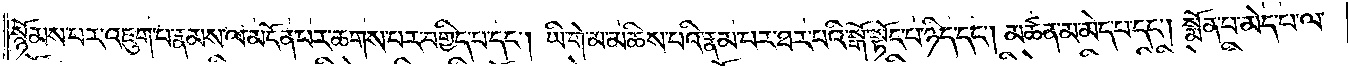སྙོམས་པར་འཇུག་པ་རྣམས་ལ་མངོན་པར་ཆགས་པར་བགྱིད་པ་དང༌། ཡི་གེ་མ་མཆིས་པའི་རྣམ་པར་ཐར་པའི་སྒོ་སྟོང་པ་ཉིད་དང༌། མཚན་མ་མེད་པ་དང༌། སྨོན་པ་མེད་པ་ལ་
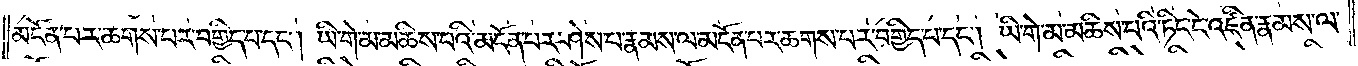མངོན་པར་ཆགས་པར་བགྱིད་པ་དང༌། ཡི་གེ་མ་མཆིས་པའི་མངོན་པར་ཤེས་པ་རྣམས་ལ་མངོན་པར་ཆགས་པར་བགྱིད་པ་དང༌། ཡི་གེ་མ་མཆིས་པའི་ཏིང་ངེ་འཛིན་རྣམས་ལ་
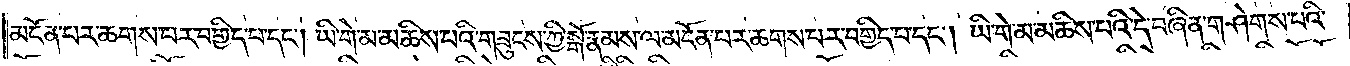མངོན་པར་ཆགས་པར་བགྱིད་པ་དང༌། ཡི་གེ་མ་མཆིས་པའི་གཟུངས་ཀྱི་སྒོ་རྣམས་ལ་མངོན་པར་ཆགས་པར་བགྱིད་པ་དང༌། ཡི་གེ་མ་མཆིས་པའི་དེ་བཞིན་གཤེགས་པའི་
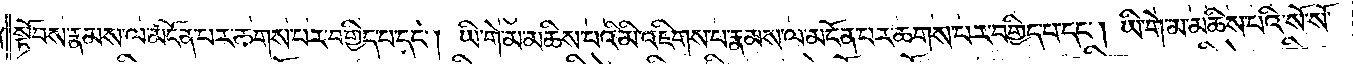སྟོབས་རྣམས་ལ་མངོན་པར་ཆགས་པར་བགྱིད་པ་དང༌། ཡི་གེ་མ་མཆིས་པའི་མི་འཇིགས་པ་རྣམས་ལ་མངོན་པར་ཆགས་པར་བགྱིད་པ་དང༌། ཡི་གེ་མ་མཆིས་པའི་སོ་སོ་
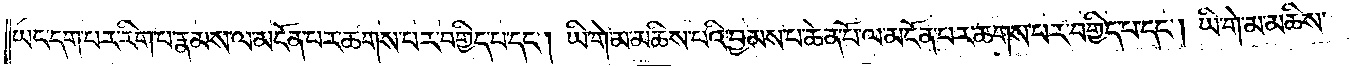ཡང་དག་པར་རིག་པ་རྣམས་ལ་མངོན་པར་ཆགས་པར་བགྱིད་པ་དང༌། ཡི་གེ་མ་མཆིས་པའི་བྱམས་པ་ཆེན་པོ་ལ་མངོན་པར་ཆགས་པར་བགྱིད་པ་དང༌། ཡི་གེ་མ་མཆིས་
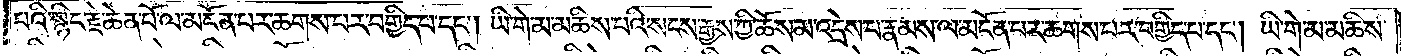པའི་སྙིང་རྗེ་ཆེན་པོ་ལ་མངོན་པར་ཆགས་པར་བགྱིད་པ་དང༌། ཡི་གེ་མ་མཆིས་པའི་སངས་རྒྱས་ཀྱི་ཆོས་མ་འདྲེས་པ་རྣམས་ལ་མངོན་པར་ཆགས་པར་བགྱིད་པ་དང༌། ཡི་གེ་མ་མཆིས་
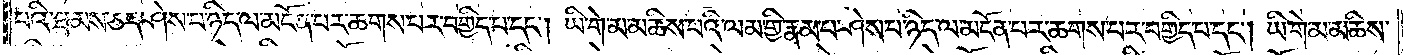པའི་ཐམས་ཅད་ཤེས་པ་ཉིད་ལ་མངོན་པར་ཆགས་པར་བགྱིད་པ་དང༌། ཡི་གེ་མ་མཆིས་པའི་ལམ་གྱི་རྣམ་པར་ཤེས་པ་ཉིད་ལ་མངོན་པར་ཆགས་པར་བགྱིད་པ་དང༌། ཡི་གེ་མ་མཆིས་
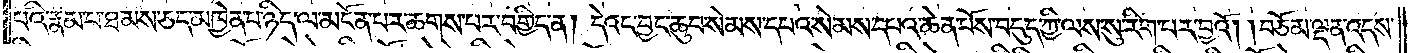པའི་རྣམ་པ་ཐམས་ཅད་མཁྱེན་པ་ཉིད་ལ་མངོན་པར་ཆགས་པར་བགྱིད་ན། དེའང་བྱང་ཆུབ་སེམས་དཔའ་སེམས་དཔའ་ཆེན་པོས་བདུད་ཀྱི་ལས་སུ་རིག་པར་བྱའོ། །བཅོམ་ལྡན་འདས་
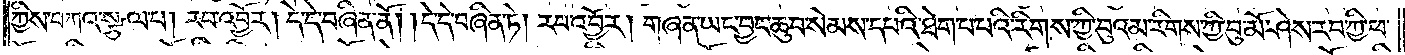ཀྱིས་བཀའ་སྩལ་པ། རབ་འབྱོར། དེ་དེ་བཞིན་ནོ། །དེ་དེ་བཞིན་ཏེ། རབ་འབྱོར། གཞན་ཡང་བྱང་ཆུབ་སེམས་དཔའི་ཐེག་པའི་རིགས་ཀྱི་བུའམ་རིགས་ཀྱི་བུ་མོ་ཤེས་རབ་ཀྱི་ཕ་
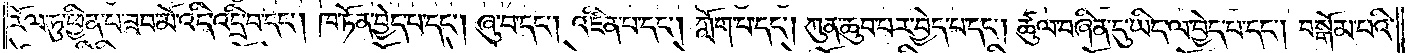རོལ་ཏུ་ཕྱིན་པ་ཟབ་མོ་འདི་འདྲི་བ་དང༌། ཁ་ཏོན་བྱེད་པ་དང༌། ཞུ་བ་དང༌། འཛིན་པ་དང༌། ཀློག་པ་དང༌། ཀུན་ཆུབ་པར་བྱེད་པ་དང༌། ཚུལ་བཞིན་དུ་ཡིད་ལ་བྱེད་པ་དང༌། བསྒོམ་པའི་
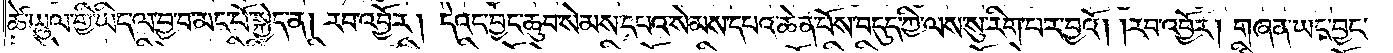ཚེ་ཡུལ་གྱི་ཡིད་ལ་བྱ་བ་མང་པོ་སྐྱེད་ན། རབ་འབྱོར། དེའང་བྱང་ཆུབ་སེམས་དཔའ་སེམས་དཔའ་ཆེན་པོས་བདུད་ཀྱི་ལས་སུ་རིག་པར་བྱའོ། རབ་འབྱོར། གཞན་ཡང་བྱང་
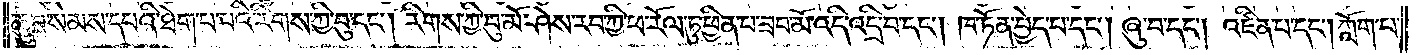ཆུབ་སེམས་དཔའི་ཐེག་པ་པའི་རིགས་ཀྱི་བུ་དང༌། རིགས་ཀྱི་བུ་མོ་ཤེས་རབ་ཀྱི་ཕ་རོལ་ཏུ་ཕྱིན་པ་ཟབ་མོ་འདི་འདྲི་བ་དང༌། ཁ་ཏོན་བྱེད་པ་དང༌། ཞུ་བ་དང༌། འཛིན་པ་དང༌། ཀློག་པ་
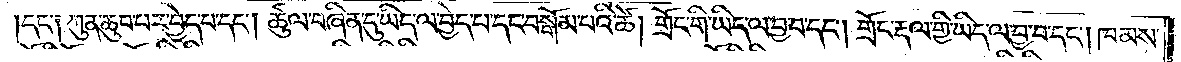དང༌། ཀུན་ཆུབ་པར་བྱེད་པ་དང༌། ཚུལ་བཞིན་དུ་ཡིད་ལ་བྱེད་པ་དང་བསྒོམ་པའི་ཚེ། གྲོང་གི་ཡིད་ལ་བྱ་བ་དང༌། གྲོང་རྡལ་གྱི་ཡིད་ལ་བྱ་བ་དང༌། ཁམས་
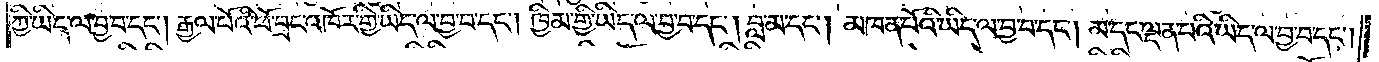ཀྱི་ཡིད་ལ་བྱ་བ་དང༌། རྒྱལ་པོའི་ཕོ་བྲང་འཁོར་གྱི་ཡིད་ལ་བྱ་བ་དང༌། ཁྱིམ་གྱི་ཡིད་ལ་བྱ་བ་དང༌། བླ་མ་དང༌། མཁན་པོའི་ཡིད་ལ་བྱ་བ་དང༌། མ་དང་ལྡན་པའི་ཡིད་ལ་བྱ་བ་དང༌།
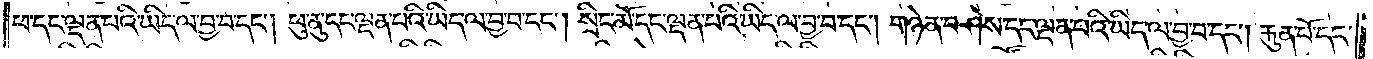ཕ་དང་ལྡན་པའི་ཡིད་ལ་བྱ་བ་དང༌། ཕུ་ནུ་དང་ལྡན་པའི་ཡིད་ལ་བྱ་བ་དང༌། སྲིང་མོ་དང་ལྡན་པའི་ཡིད་ལ་བྱ་བ་དང༌། གཉེན་བཤེས་དང་ལྡན་པའི་ཡིད་ལ་བྱ་བ་དང༌། རྐུན་པོ་དང་
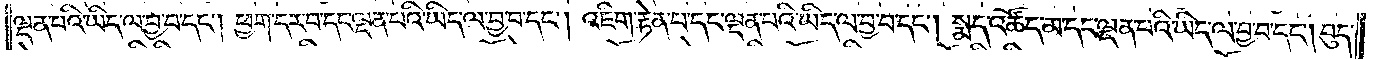ལྡན་པའི་ཡིད་ལ་བྱ་བ་དང༌། ཕྱག་དར་བ་དང་ལྡན་པའི་ཡིད་ལ་བྱ་བ་དང༌། འཇིག་རྟེན་པ་དང་ལྡན་པའི་ཡིད་ལ་བྱ་བ་དང༌། སྨད་འཚོང་མ་དང་ལྡན་པའི་ཡིད་ལ་བྱ་བ་དང༌། བུད་
